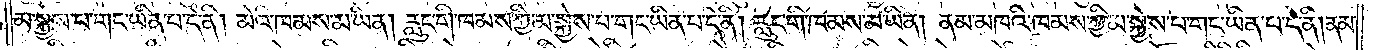མ་སྐྱེས་པ་གང་ཡིན་པ་དེ་ནི། མེའི་ཁམས་མ་ཡིན། རླུང་གི་ཁམས་ཀྱི་མ་སྐྱེས་པ་གང་ཡིན་པ་དེ་ནི། རླུང་གི་ཁམས་མ་ཡིན། ནམ་མཁའི་ཁམས་ཀྱི་མ་སྐྱེས་པ་གང་ཡིན་པ་དེ་ནི། ནམ་
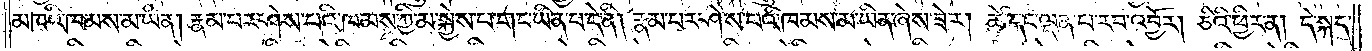མཁའི་ཁམས་མ་ཡིན། རྣམ་པར་ཤེས་པའི་ཁམས་ཀྱི་མ་སྐྱེས་པ་གང་ཡིན་པ་དེ་ནི། རྣམ་པར་ཤེས་པའི་ཁམས་མ་ཡིན་ཞེས་ཟེར། ཚེ་དང་ལྡན་པ་རབ་འབྱོར། ཅིའི་ཕྱིར་ན། དེ་སྐད་
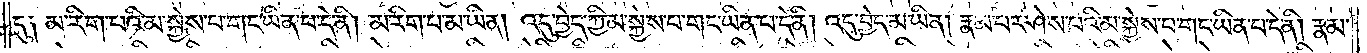དུ། མ་རིག་པའི་མ་སྐྱེས་པ་གང་ཡིན་པ་དེ་ནི། མ་རིག་པ་མ་ཡིན། འདུ་བྱེད་ཀྱི་མ་སྐྱེས་པ་གང་ཡིན་པ་དེ་ནི། འདུ་བྱེད་མ་ཡིན། རྣམ་པར་ཤེས་པའི་མ་སྐྱེས་པ་གང་ཡིན་པ་དེ་ནི། རྣམ་
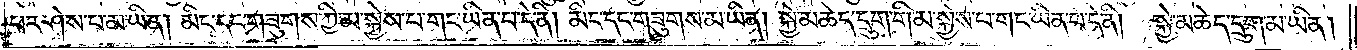པར་ཤེས་པ་མ་ཡིན། མིང་དང་གཟུགས་ཀྱི་མ་སྐྱེས་པ་གང་ཡིན་པ་དེ་ནི། མིང་དང་གཟུགས་མ་ཡིན། སྐྱེ་མཆེད་དྲུག་གི་མ་སྐྱེས་པ་གང་ཡིན་པ་དེ་ནི། སྐྱེ་མཆེད་དྲུག་མ་ཡིན།
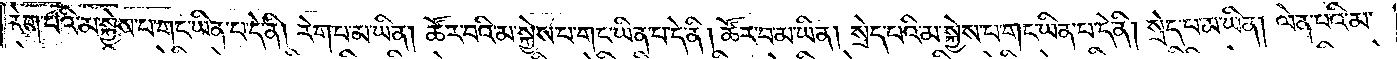རེག་པའི་མ་སྐྱེས་པ་གང་ཡིན་པ་དེ་ནི། རེག་པ་མ་ཡིན། ཚོར་བའི་མ་སྐྱེས་པ་གང་ཡིན་པ་དེ་ནི། ཚོར་བ་མ་ཡིན། སྲེད་པའི་མ་སྐྱེས་པ་གང་ཡིན་པ་དེ་ནི། སྲེད་པ་མ་ཡིན། ལེན་པའི་མ་
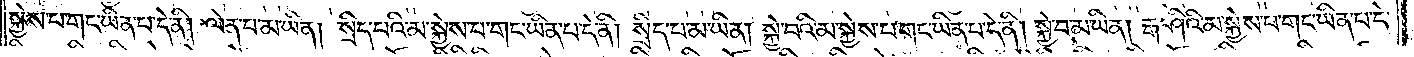སྐྱེས་པ་གང་ཡིན་པ་དེ་ནི། ལེན་པ་མ་ཡིན། སྲིད་པའི་མ་སྐྱེས་པ་གང་ཡིན་པ་དེ་ནི། སྲིད་པ་མ་ཡིན། སྐྱེ་བའི་མ་སྐྱེས་པ་གང་ཡིན་པ་དེ་ནི། སྐྱེ་བ་མ་ཡིན། རྒ་ཤིའི་མ་སྐྱེས་པ་གང་ཡིན་པ་དེ་
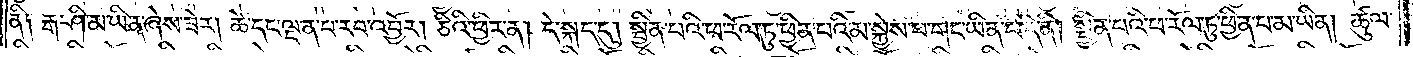ནི། རྒ་ཤི་མ་ཡིན་ཞེས་ཟེར། ཚེ་དང་ལྡན་པ་རབ་འབྱོར། ཅིའི་ཕྱིར་ན། དེ་སྐད་དུ། སྦྱིན་པའི་ཕ་རོལ་ཏུ་ཕྱིན་པའི་མ་སྐྱེས་པ་གང་ཡིན་པ་དེ་ནི། སྦྱིན་པའི་ཕ་རོལ་ཏུ་ཕྱིན་པ་མ་ཡིན། ཚུལ་
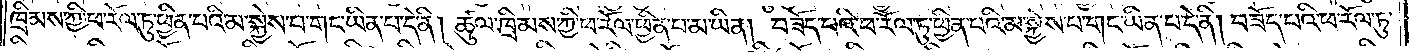ཁྲིམས་ཀྱི་ཕ་རོལ་ཏུ་ཕྱིན་པའི་མ་སྐྱེས་པ་གང་ཡིན་པ་དེ་ནི། ཚུལ་ཁྲིམས་ཀྱི་ཕ་རོལ་ཏུ་ཕྱིན་པ་མ་ཡིན། བཟོད་པའི་ཕ་རོལ་ཏུ་ཕྱིན་པའི་མ་སྐྱེས་པ་གང་ཡིན་པ་དེ་ནི། བཟོད་པའི་ཕ་རོལ་ཏུ་
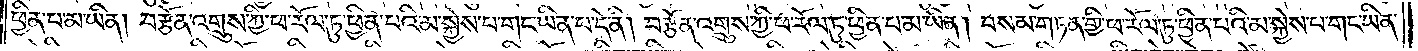ཕྱིན་པ་མ་ཡིན། བརྩོན་འགྲུས་ཀྱི་ཕ་རོལ་ཏུ་ཕྱིན་པའི་མ་སྐྱེས་པ་གང་ཡིན་པ་དེ་ནི། བརྩོན་འགྲུས་ཀྱི་ཕ་རོལ་ཏུ་ཕྱིན་པ་མ་ཡིན། བསམ་གཏན་གྱི་ཕ་རོལ་ཏུ་ཕྱིན་པའི་མ་སྐྱེས་པ་གང་ཡིན་
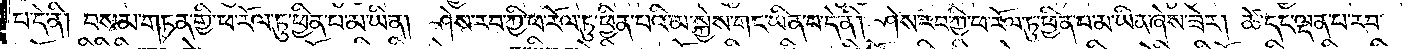པ་དེ་ནི། བསམ་གཏན་གྱི་ཕ་རོལ་ཏུ་ཕྱིན་པ་མ་ཡིན། ཤེས་རབ་ཀྱི་ཕ་རོལ་ཏུ་ཕྱིན་པའི་མ་སྐྱེས་པ་གང་ཡིན་པ་དེ་ནི། ཤེས་རབ་ཀྱི་ཕ་རོལ་ཏུ་ཕྱིན་པ་མ་ཡིན་ཞེས་ཟེར། ཚེ་དང་ལྡན་པ་རབ་
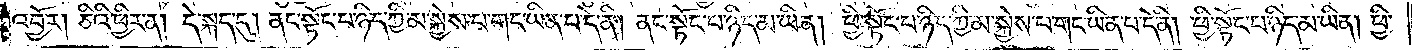འབྱོར། ཅིའི་ཕྱིར་ན། དེ་སྐད་དུ། ནང་སྟོང་པ་ཉིད་ཀྱི་མ་སྐྱེས་པ་གང་ཡིན་པ་དེ་ནི། ནང་སྟོང་པ་ཉིད་མ་ཡིན། ཕྱི་སྟོང་པ་ཉིད་ཀྱི་མ་སྐྱེས་པ་གང་ཡིན་པ་དེ་ནི། ཕྱི་སྟོང་པ་ཉིད་མ་ཡིན། ཕྱི་
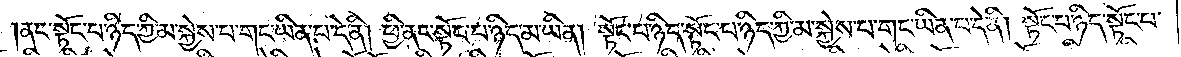ནང་སྟོང་པ་ཉིད་ཀྱི་མ་སྐྱེས་པ་གང་ཡིན་པ་དེ་ནི། ཕྱི་ནང་སྟོང་པ་ཉིད་མ་ཡིན། སྟོང་པ་ཉིད་སྟོང་པ་ཉིད་ཀྱི་མ་སྐྱེས་པ་གང་ཡིན་པ་དེ་ནི། སྟོང་པ་ཉིད་སྟོང་པ་
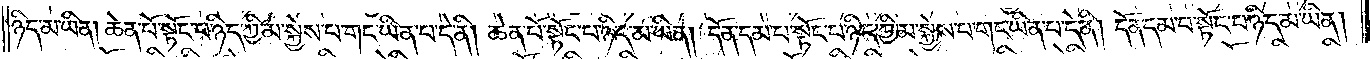ཉིད་མ་ཡིན། ཆེན་པོ་སྟོང་པ་ཉིད་ཀྱི་མ་སྐྱེས་པ་གང་ཡིན་པ་དེ་ནི། ཆེན་པོ་སྟོང་བ་ཉིད་མ་ཡིན། དོན་དམ་པ་སྟོང་པ་ཉིད་ཀྱི་མ་སྐྱེས་པ་གང་ཡིན་པ་དེ་ནི། དོན་དམ་པ་སྟོང་པ་ཉིད་མ་ཡིན།
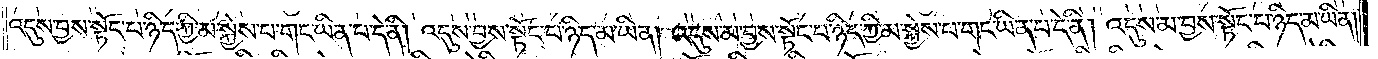འདུས་བྱས་སྟོང་པ་ཉིད་ཀྱི་མ་སྐྱེས་པ་གང་ཡིན་པ་དེ་ནི། འདུས་བྱས་སྟོང་པ་ཉིད་མ་ཡིན། འདུས་མ་བྱས་སྟོང་པ་ཉིད་ཀྱི་མ་སྐྱེས་པ་གང་ཡིན་པ་དེ་ནི། འདུས་མ་བྱས་སྟོང་པ་ཉིད་མ་ཡིན།
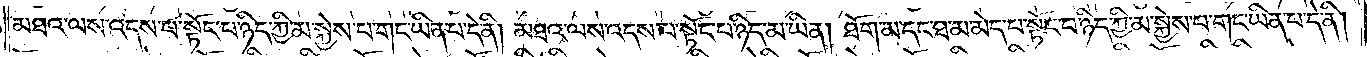མཐའ་ལས་འདས་པ་སྟོང་པ་ཉིད་ཀྱི་མ་སྐྱེས་པ་གང་ཡིན་པ་དེ་ནི། མཐའ་ལས་འདས་པ་སྟོང་པ་ཉིད་མ་ཡིན། ཐོག་མ་དང་ཐ་མ་མེད་པ་སྟོང་པ་ཉིད་ཀྱི་མ་སྐྱེས་པ་གང་ཡིན་པ་དེ་ནི།
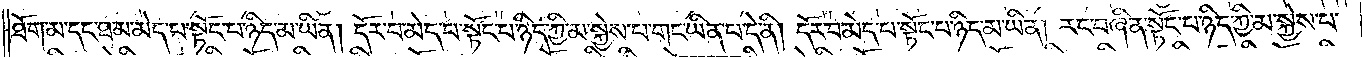ཐོག་མ་དང་ཐ་མ་མེད་པ་སྟོང་པ་ཉིད་མ་ཡིན། དོར་བ་མེད་པ་སྟོང་པ་ཉིད་ཀྱི་མ་སྐྱེས་པ་གང་ཡིན་པ་དེ་ནི། དོར་བ་མེད་པ་སྟོང་པ་ཉིད་མ་ཡིན། རང་བཞིན་སྟོང་པ་ཉིད་ཀྱི་མ་སྐྱེས་པ་
